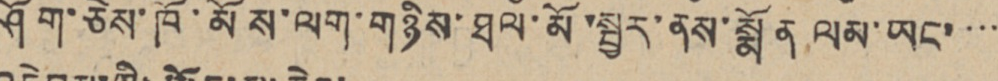ཤོག་ཅེས་ཁོ་མོས་ལག་གཉིས་ཐལ་མོ་སྦྱར་ནས་སྨོན ལམ་ཡང་་་་
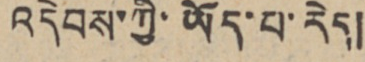འདེབས་ཀྱི་ཡོད་པ་རེད།
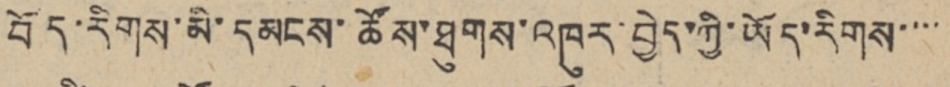བོད་རིགས་མི་དམངས་ཚོས་ཐུགས་འཁུར་བྱེད་ཀྱི་ཡོད་རིགས་་་་
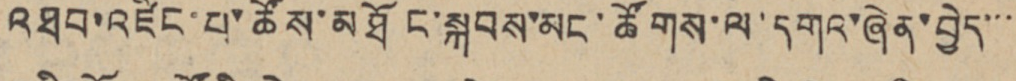འཐབ་འཛིང་པ་ཚོས་མཐོང་སྐབས་མང་ཚོགས་ལ་དགའ་ཞེན་བྱེད་་་
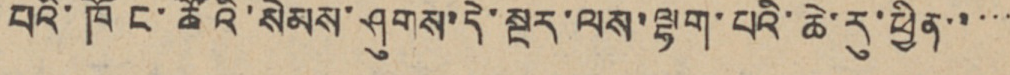པའི་ཁོང་ཚོའི་སེམས་ཤུགས་དེ་སྔར་ལས་ལྷག་པའི་ཆེ་རུ་ཕྱིན་་་་་
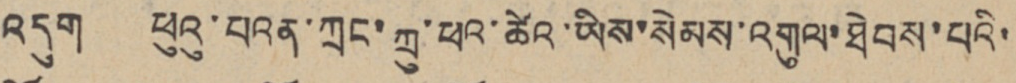འདུག ཕུའུ་པའན་ཀྲང་ཀྲུ་ཕའ་ཚེའ་ཡིས་སེམས་འགུལ་ཐེབས་པའི་
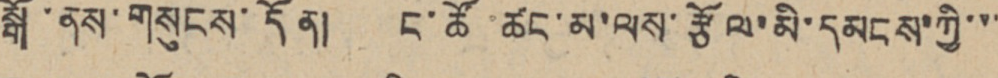སྒོ་ནས་གསུངས་དོན། ང་ཚོ་ཚང་མ་ལས་རྩོལ་མི་དམངས་ཀྱི་་་
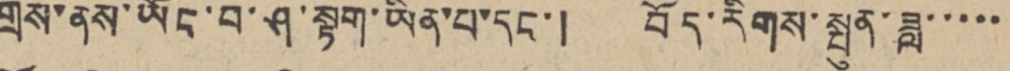གྲས་ནས་ཡོང་བ་ཤ་སྟག་ཡིན་པ་དང་། བོད་རིགས་སྤུན་ཟླ་་་་་
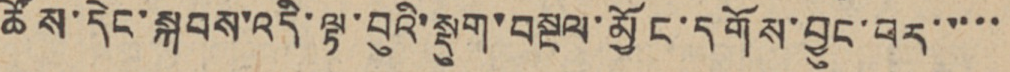ཚོས་དེང་སྐབས་འདི་ལྟ་བུའི་སྡུག་བསྔལ་མྱོང་དགོས་བྱུང་བར་་་་་
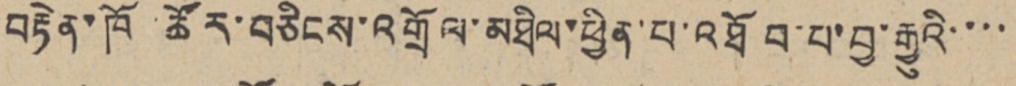བརྟེན་ཁོ་ཚོར་བཅིངས་འགྲོལ་མཐིལ་ཕྱིན་པ་འཐོབ་པ་བྱ་རྒྱུའི་་་་
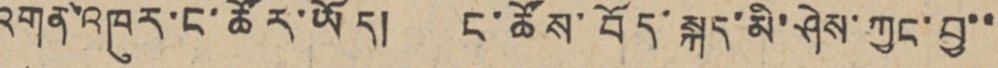འགན་འཁུར་ང་ཚོར་ཡོད། ང་ཚོས་བོད་སྐད་མི་ཤེས་ཀྱང་བྱ་་
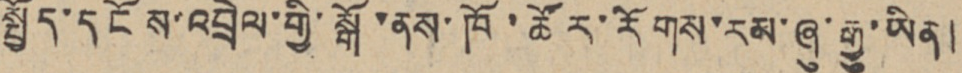སྤྱོད་དངོས་འབྲེལ་གྱི་སྒོ་ནས་ཁོ་ཚོར་རོགས་རམ་ཞུ་རྒྱུ་ཡིན།
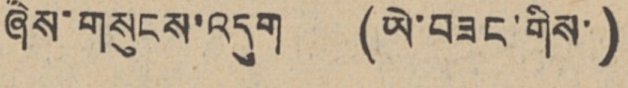ཞེས་གསུངས་འདུག (ཡེ་བཟང་གིས་)
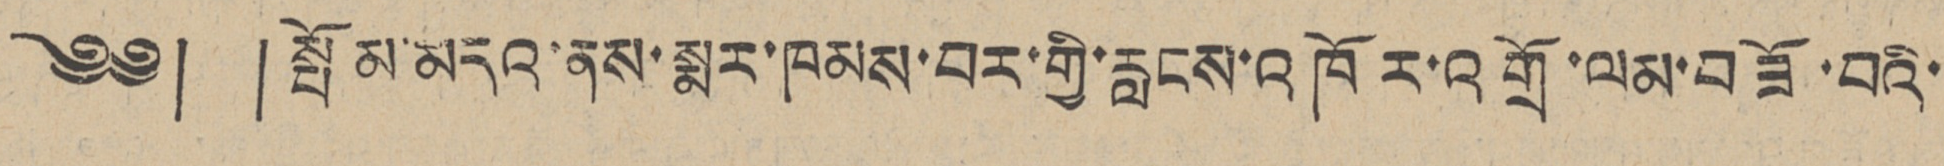༄༅། ། སྤོམ་མདའ་ནས་སྨར་ཁམས་བར་གྱི་རླངས་འཁོར་འགྲོ་ལམ་བཟོ་བའི་
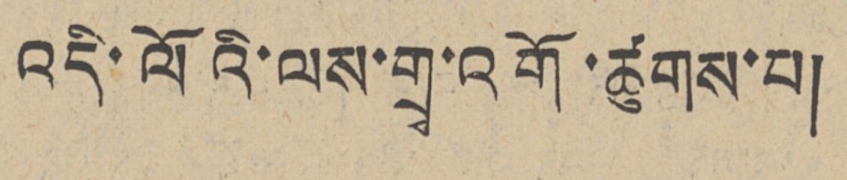འདི་ལོའི་ལས་གྲྭ་འགོ་ཚུགས་པ།
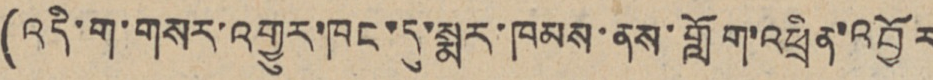(འདི་ག་གསར་ཁང་དུ་སྨར་ཁམས་ནས་གློག་འཕྲིན་འབྱོར
